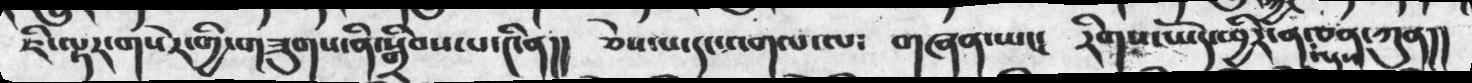ཇི་ལྟར་གསེར་གྱི་གཟུགས་ནི་སྒྲིབས་པ་༤ིན།།   ཅེས་པ་དང་འགལ་ལ༴   གཞན་ཡང་   རིགས་ཡོད་ཕྱིར་ན་འདས་ཅན་ཀུན།།
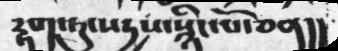རྟག་ཏུ་སདྱས་སྙིང་པོ་ཅན།།
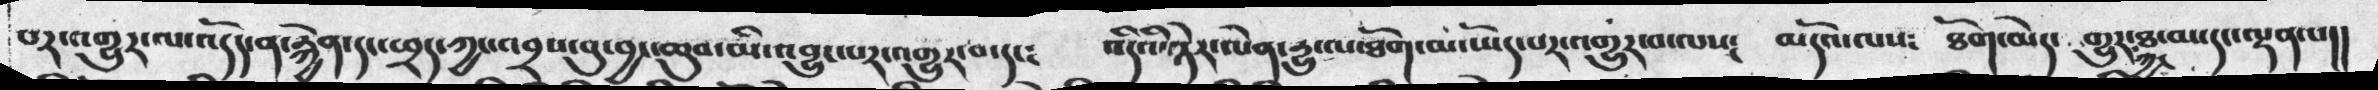པར་འགྱུར་པ་འདོད་ན་རྐྱེན་དང་ཕྲད་ཀྱང་འབྲས་བུ་བྱང་ཆུབ་མི་འབྱུང་པར་འགྱུར་བ་དང༴   འདིའི་ཉེར་ལེན་དྱུ་ལ་ཐོག་མ་ཡོད་པར་འགྱུར་བ་ལས༴   མདོའ་ལས༴  ཐོག་མེད་  གྱུར་ཀྱང་ཐ་མ་དང་ལྡན་པ།།
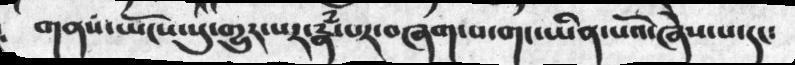གནས་ཡོངས་སུ་གྱུར་པར་རྣཾ་པར་བཞག་པ་གང་ཡིན་པའོ་ཞེས་པ་དང་
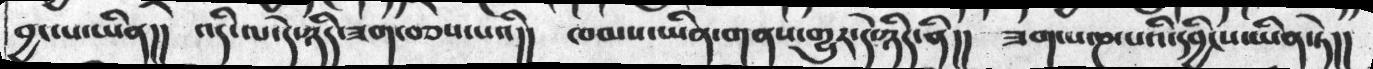བྱང་པ་ཡིན།།  འདི་ལ་དེ་ཉིད་ཟག་བཅས་པའི།།  ཁམས་ཡིན་གནས་གྱུར་དེ་ཉིད་ནི།།   ཟག་པ་ཎ་པའི་དབྱིངས་ཡིན་ཏེ།།
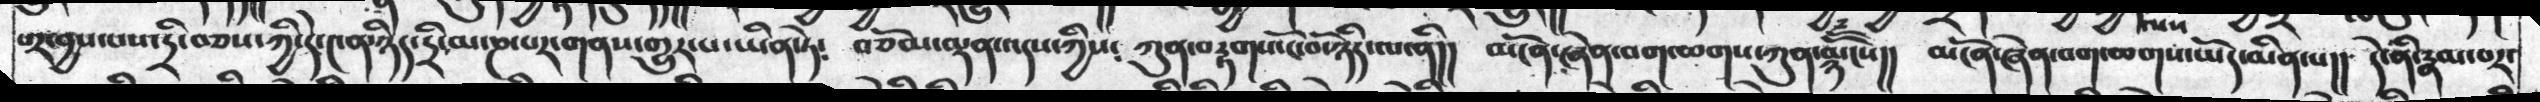པར་བྱས་པས་དྲི་བཅས་ཀྱི་དེ་༤ིན་ཉིད་དྲི་མ་ཎ་པར་གནས་གྱུར་པ་ཡིན་ཏེ༴   བཅོམ་ལྡན་འདས་ཀྱིས༴ ཀུན་བརྟག་ངོ་བོ་ཉིད་ལ་ནི།།  མངོན་ཞེན་བག་ཆགས་ཀུན་ཉོན་མོངས།།  མངོན་ཞེན་བག་ཆགས་ཡོད་མིན་པ།།   དེ་ནི་རྣམ་པར་
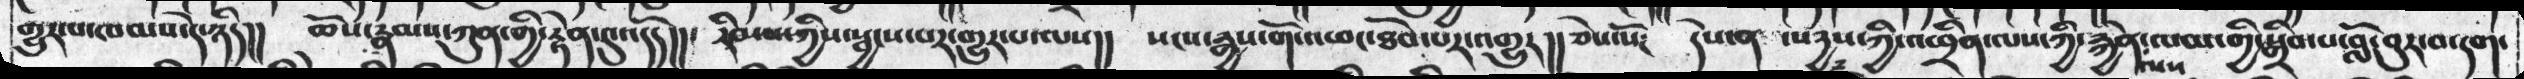གྱུར་པ་ཁམས་དེ་ཉིད།།  ཆོས་རྣམས་ཀུན་གྱི་རྟེན་དུ་འདོད།།   རིམས་ཀྱིས་སྦྱངས་པར་གྱུར་པ་ལས།།  སངས་རྒྱས་གོ་འཕང་ཐོབ་པར་འགྱུར།།  ཅེས་སོ༴    དེས་ན་སངྱས་ཀྱི་འཕྲིན་ལས་ཀྱི་རྐྱེན་ལས་ལམ་གྱི་སྒྲིབ་པ་བློ་བུར་བ་དག་
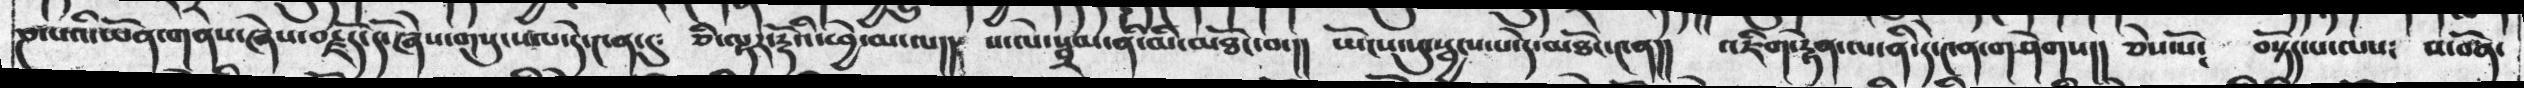ཎ་པའི་ཡོན་གནས་ཞེས་བརྗོད་དོ་ཞེས་གསུངས་པ་དེ་༤ན་དུ༴  ཅི་ལྟར་རྡོའི་ཕྱེ་མ་ལ།།  ས་ལེ་སྦྲམ་ནི་མི་མཐོང་བ་།།  ཡོངས་སུ་སྦྱངས་པ་མཐོང་༤ན།།  འཇིག་རྟེན་ལ་ནི་དེ་༤ན་གཤེགས།།  ཅེས་སོ༴  བསྟོད་པ་ལས༴  ས་བོན་
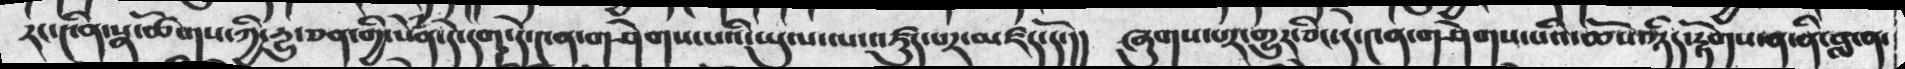རང་༤ིན་སྣ་ཚོགས་ཀྱི་རྱུ་ཅན་གྱི་སེཾན་དེ་དག་དེ་༤ན་གཤེགས་པའི་ཡུལ་ལ་འཛུད་པར་མཛད་དོ།།  ཞུགས་པར་གྱུར་ཅིང་དེ་༤ན་གཤེགས་པའི་ཆོས་ཉིད་རྟོགས་ན་ནི་བླ་ན་
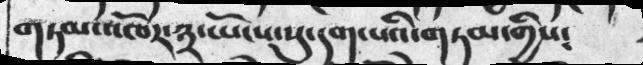གཏམ་འཁོར་༣་ཡོངས་སུ་དག་པའི་གཏམ་གྱིས༴
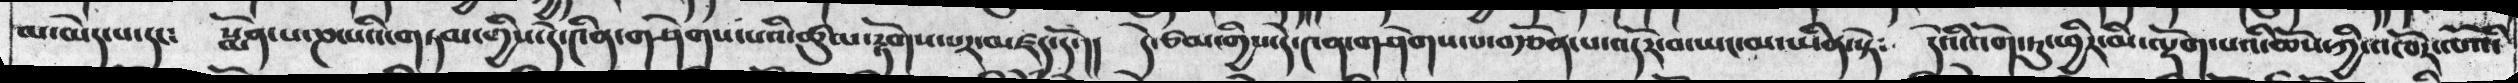ལ་མེད་པ་དང༴    སྨོན་པ་ཎ་པའི་གཏམ་གྱིས་དེ་༤ིན་གཤེགས་པའི་ཚུལ་རྟོགས་པར་མཛད་དོ།།   དེ་ཙམ་གྱིས་དེ་༤ན་གཤེགས་པ་བརྩོན་པ་འདོར་བ་ཡང་མ་ཡིན་སྟེ༴  དེའི་འོག་ཏུ་ཕྱིར་མི་ལྡོག་པའི་ཆོས་ཀྱི་འཁོར་ལོའི་
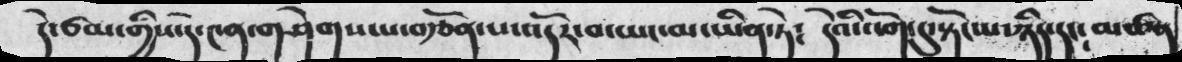དེ་ཙམ་གྱིས་དེ་༤ན་གཤེགས་པ་བརྩོན་པ་འདོར་བ་ཡང་མ་ཡིན་ཏེ༴  དེའི་འོག་དུ་སྟོང་པ་ཉིད་དང་མཚན
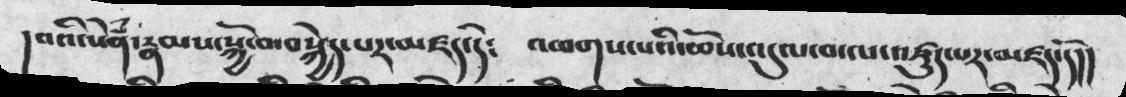།བའི་སེཾན་རྣམས་སྐྱོ་བ་བསྐྱེད་པར་མཛད་དེ༴   འཕགས་པའི་ཆོས་འདུལ་བ་ལ་འཛུད་པར་མཛད་དོ།།
